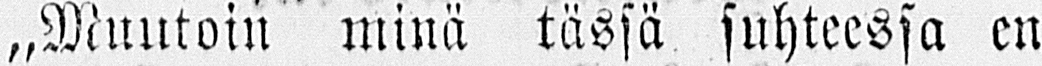˶Muutoin minä tässä suhteessa en
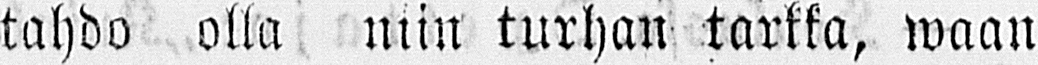tahdo olla niin turhan tarkka, waan
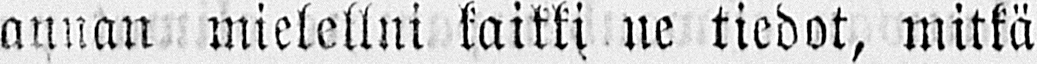annan mielellni kaikki ne tiedot, mitkä
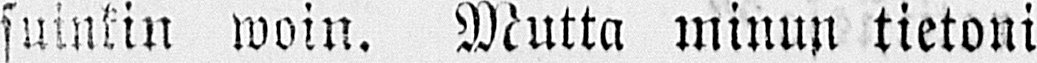suinkin woin. Mutta minun tietoni
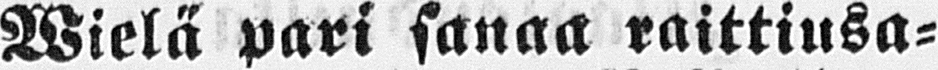Wielä pari sanaa raittiusa-
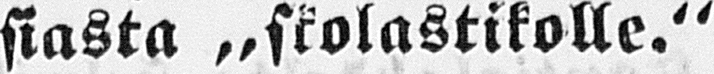siasta ˶ skolastikolle."
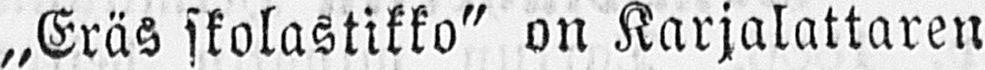„Eräs skolastikko" on Karjalattaren
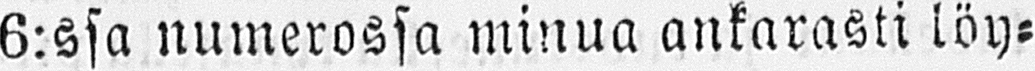6:ssa numerossa minua ankarasti löy-
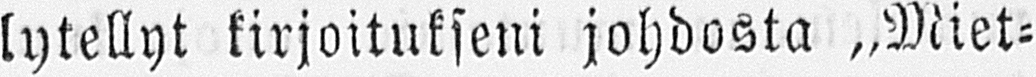lytellyt kirjoitukseni johdosta „Miet-
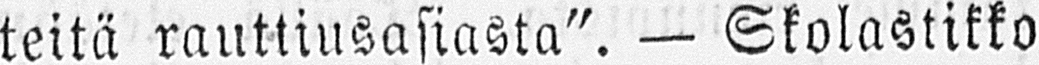teitä rauttiusasiasta". — Skolastikko
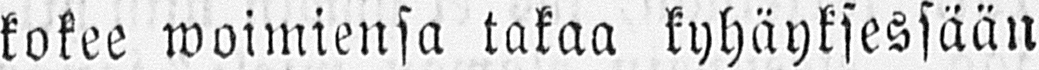kokee woimiensa takaa kyhäyksessään
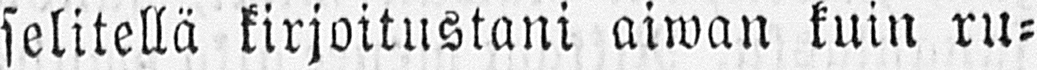selitellä kirjoitustani aiwan kuin ru-
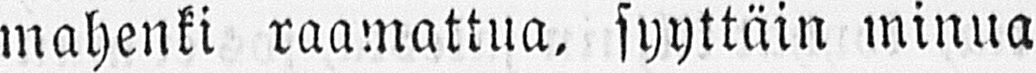mahenki raamattua, syyttäin minua
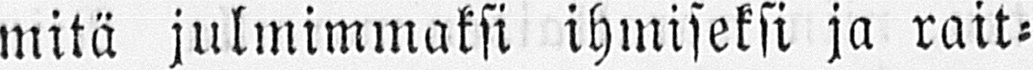mitä julmimmaksi ihmiseksi ja rait-
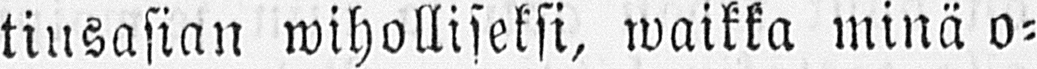tiusasian wiholliseksi, waikka minä o-
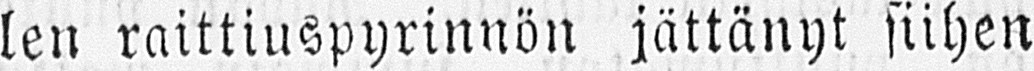len raittiuspyrinnön jättänyt siihen
